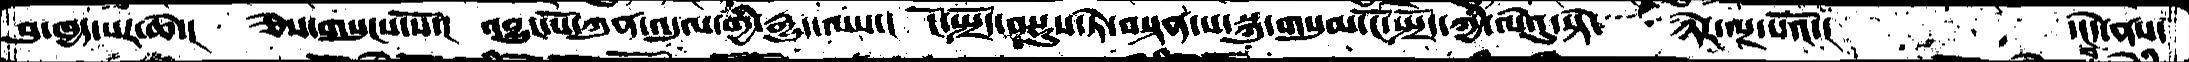བུ་ཁྱད་པར་ཆེ་།  ཅེས་གསུངས་སོ་།  འབྱུང་པོ་ཀུན་འདུལ་གྱི་རྒྱུད་ལས་།  ངོ་སྤྲོད་བསྡུས་ཏེ་བསྟན་པ་སྐུ་གསུམ་ངོ་སྤྲོད་ཀྱི་ལེའུ་སྟེ་  ཉེར་ལྔ་པའོ་།   ་།དེ་ནས་
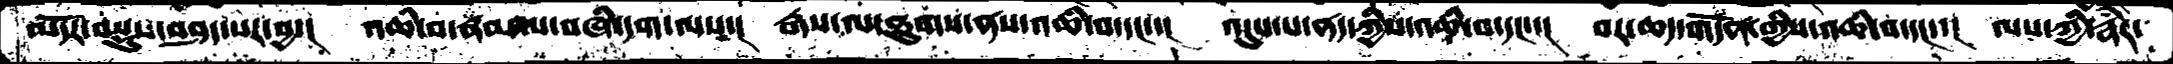མདོར་བསྡུས་བཤད་པར་བྱ་།  འཆི་བ་རྣམ་པ་བཞི་དག་ལས་།  རྒས་ལ་ཐུགས་ནས་འཆི་བ་དང་་།  འདུས་པ་ནད་ཀྱིས་འཆི་བ་དང་་།  བར་ཆད་གདོན་གྱིས་འཆི་བ་དང་་།  ལས་ཀྱི་རྣཾར་
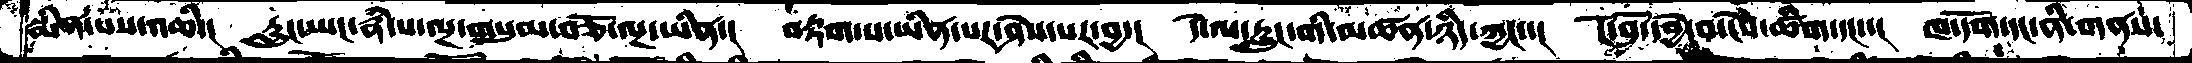སྨིན་པས་འཆི་།  རླུང་ཡང་རྣཾ་པ་ལྔ་གསུམ་བཅོ་ལྔ་ཡིན་།  བརྟག་པ་ཡིན་པར་ཤེས་པར་བྱ་།  དེ་ལ་རླུང་གི་མཚན་ཉིད་ཀྱང་།  ངོ་བོ་བྱེད་བ་ངེས་ཚིག་དང་།  ཁ་དོག་དང་ནི་གནས་
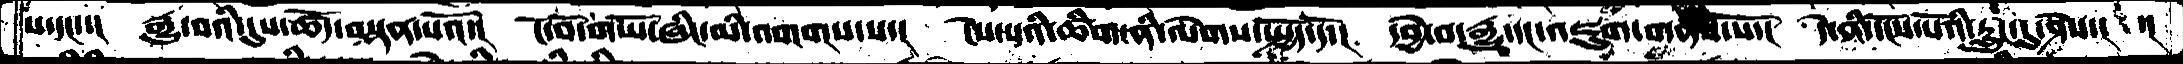ས་དང་།  རྒྱུ་བའི་དུས་ཚོད་བསྟན་པའོ་།  ངོ་བོ་གཡོ་ཞིང་མི་འགགས་པ་།  ངེས་པའི་ཚིག་ནི་ལེགས་སྤྱོད་དོ་།  དབྱེ་བ་རྒྱུ་དང་འཇུག་གནས་སོ་།  དེ་ནི་དངོས་པོའི་རླུང་དུ་ཤེས་། ་།
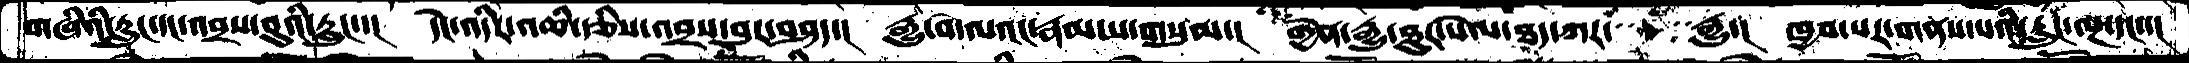གཞིའི་རླུང་དང་འབྲས་བུའི་རླུང་་།  དེང་འདིར་འཆི་རྩིས་འབྲས་བུར་བཤད་།  རྒྱུ་བ་ལའང་རྣམ་པ་གསུམ་།  གྱེན་རྒྱུ་ཐུར་སེལ་ཐད་ཀར་   རྒྱུ་།  ཁྱབ་པར་གནས་པའི་རླུང་ལྔ་དང་་།
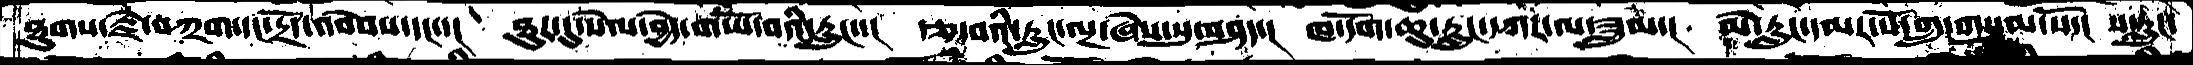ཐུགས་རྗེ་བཀྲག་དང་དྲོད་འབེབས་དང་་།   ཐུར་དུ་སེལ་བྱེད་གཡོ་བའི་རླུང་་།  རྩ་བའི་རླུང་ལྔ་ཞེས་སུ་བཤད་།  ཁ་དོག་ཆུ་རླུང་དཀར་ལ་ཟླུམ་།  མེ་རླུང་དམར་པོ་གྲུ་གསུམ་སོ་།  ས་རླུང་
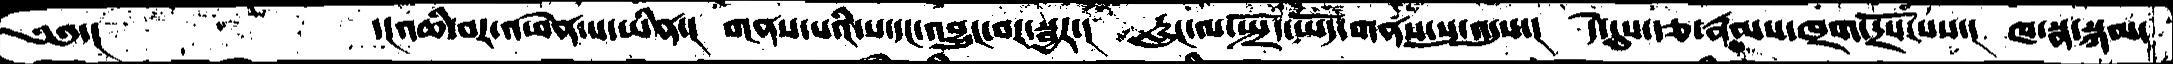༄༅་།         ་།འཆི་བར་འཕེན་པ་ཡིན་།   གནས་པའི་ས་དང་འབྱུང་བར་སྦྱར་།  རླུང་ལ་སྤྲོད་ཡོད་གནས་སུ་འདུས་།  དེ་དུས་རྩ་རྣམས་ཁྲག་དྲོས་པས་།  ཁ་སྣ་སྐམ་
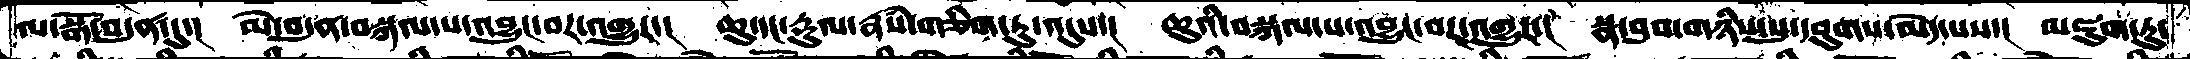ལ་སྒོ་བདུན་དུ་།   མེ་བདུན་བསྐལ་པ་འབྱུང་བར་འགྱུར་།    ཆུ་དང་རྡུལ་རྣཾས་གཅིག་ཏུ་འདུས་།  ཆུའི་བསྐལ་པ་འབྱུང་བར་འགྱུར་།  སྣ་བུབ་གཉིས་སུ་དབུགས་མེད་པས་།  མཇུག་ཏུ་
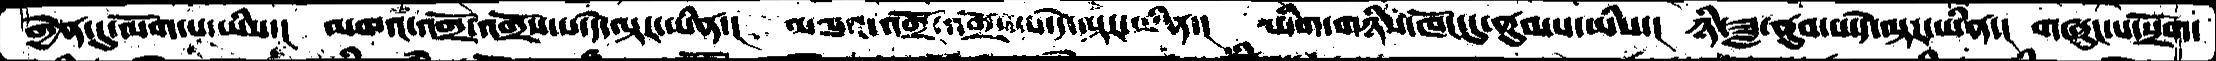གྱེན་དུ་ལོག་པ་ཡིས་།  མཁའ་འགྲོ་འགྲོས་པ་དེ་ལྟར་ཡིན་།  མཁའ་འགྲོ་འགྲོས་པ་དེ་ལྟར་ཡིན་།  མིག་གཉིས་ཁོང་དུ་ནུབ་པ་ཡིས་།  ཉི་ཟླ་ནུབ་པ་དེ་ལྟར་ཡིན་།  གཞུང་པ་སྲོག་
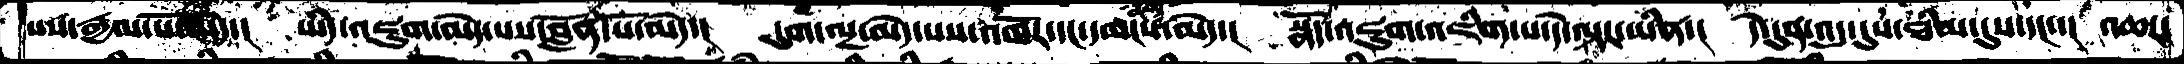པས་རྒྱལ་པོ་མེད་་།  ཡིད་འཇུག་མེད་པས་བློན་པོ་མེད་།  དུག་ལྔ་མེད་པས་འཁོར་དང་དམངས་མེད་།  སྣོད་འཇུག་འཇིག་པ་དེ་ལྟར་ཡིན་།  དེ་དུན་འདུ་དུས་ཐིམ་དུས་དང་་།  འཆར་
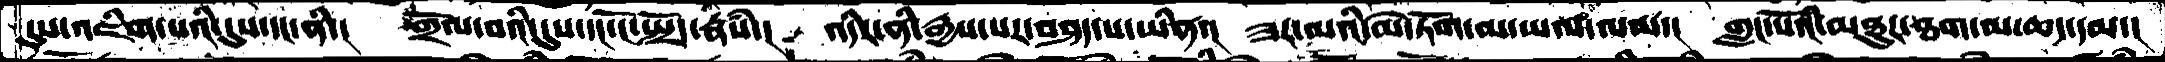དུས་འཇིག་པའི་དུས་དང་ནི་།   གྲོལ་བའི་དུས་དང་ངོ་སྤྲོད་རྣཾས་།  འདིར་ནི་རྒྱས་པར་བཤད་པ་ཡིན་།  ཟར་མའི་མེ་ཏོག་མ་ཡལ་ལམ་།  གླང་པོའི་མཐུར་ཐག་མ་ཆད་དམ་།
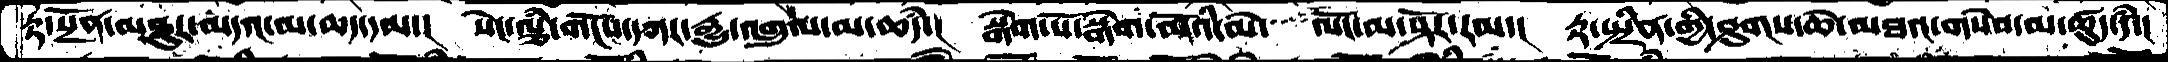རྟ་སྔོན་མཐུར་མདའ་མ་ཆད་དམ་།   སེང་ལྕཾ་གོངས་དཀར་རྒྱུ་འཁྲུལ་མ་ཆདཾ་།  སྒེག་པོ་སྒེག་མོའི་མེ་  ལོང་མ་ཤོར་རམ་།  རྟ་སྤྲིན་གྱི་ཤུགས་ཆེ་མཐའ་གསེབ་མ་ཚུད་དཾ་།
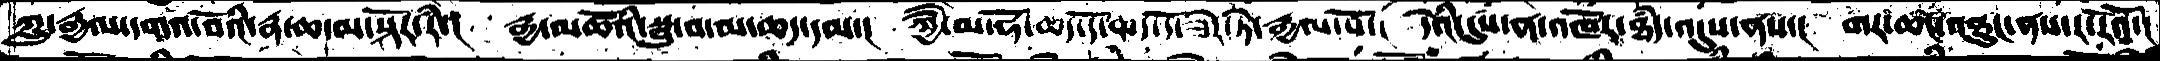ཀླུ་རྒྱལ་དགའ་བོའི་རྣ་ཆ་མ་སྟོར་རེ་།  རྒྱ་མཚོའི་སྦུ་བ་མ་ཆད་དམ་།  ཀྱཻ་མ་ཧོ་ཆད་དོཆད་དོ་ཟེར་ཏེ་རྒྱལ་པོ་།  དེའི་དུས་ན་འཁོར་ཐཾད་འདུས་ནས་།   གར་ཆང་འཐུང་ནས་ར་རོའོ་།
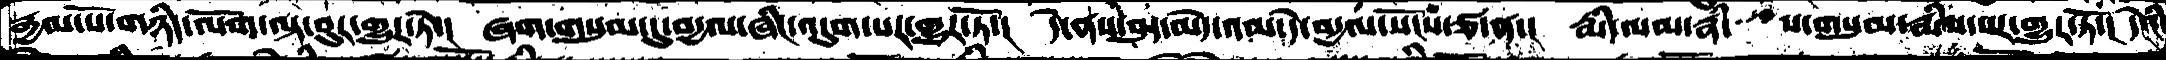རྒྱལ་པོ་གཉིད་ལོག་ལྟ་བུར་གྱུར་ཏེ་།   ཞག་གསུམ་དུ་བདྱལ་ཞིང་འདུག་པར་གྱུར་ཏོ་།  དེ་ནས་བུད་མེད་འམ་དེ་བདྱལ་སོངས་ཙ་ན་།  རྨི་ལམ་རྣཾ་  ས་གསུམ་རྨིས་པར་གྱུར་ཏོ་།  དེའི་
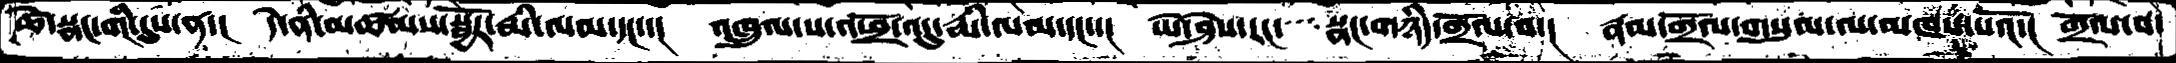ཚེ་སྣང་གི་དུས་ན་།   དེ་ནི་མཚམས་སྦྱོར་རྨི་ལམ་དང་་།  འཁྲུལ་པ་འཕྲོ་འདུ་རྨི་ལམ་དང་་།  ཡེ་ཤེས་རང་  སྣང་གཉིད་གྲོལ་བ་།  རྣམ་གྲོལ་གསུམ་ལ་མཁས་པའོ་།  གྲོལ་བ་
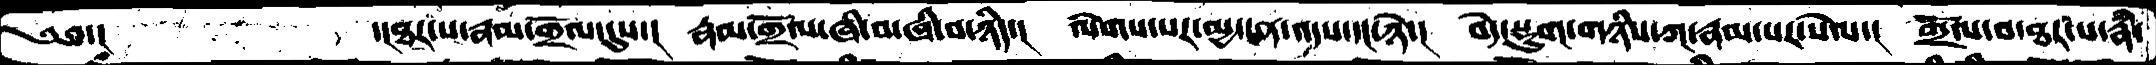༄༅་།།       ་།ཐར་པ་རྣམ་གྲོལ་དུས་།   རྣམ་གྲོལ་ཞི་བ་ཞི་བ་ཉིད་།  ལེགས་པར་མྱ་ངན་འདས་དང་ཉེ་།  བདེ་སྡུག་གཉིས་ཀ་རྣམ་པར་སེལ་།  གྲོལ་བ་ཐར་པ་རྣཾ་
